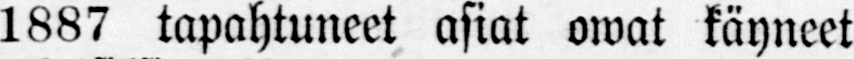1887 tapahtuneet asiat owat käyneet
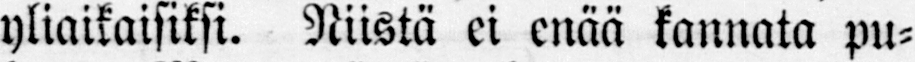yliaikaisiksi. Niistä ei enää kannata pu-
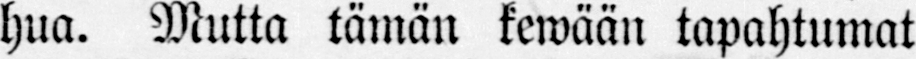hua. Mutta tämän kewään tapahtumat
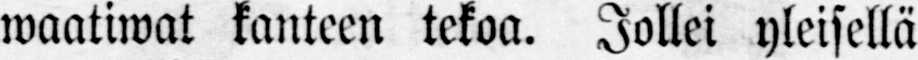waatiwat kanteen tekoa. Jollei yleisillä
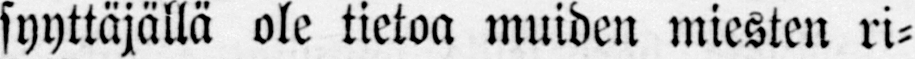syyttäjällä ole tietoa muiden miesten ri-
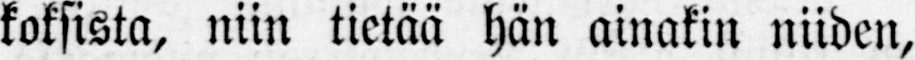koksista, niin tietää hän ainakin niiden,
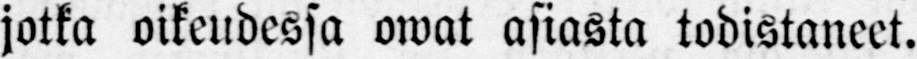jotka oikeudessa owat asiasta todistaneet.
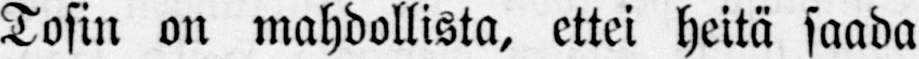Tosin on mahdollista, ettei heitä saada
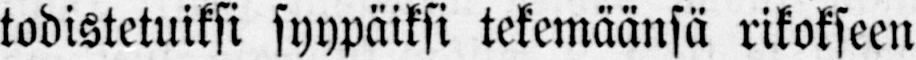todistetuiksi syypäiksi tekemäänsä rikokseen
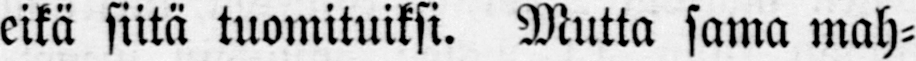eikä siitä tuomituiksi. Mutta sama mah-
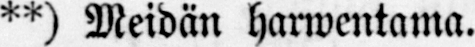**) Meidän harwentama.
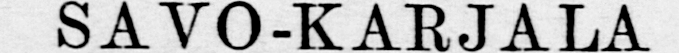SAVO-KARJALA
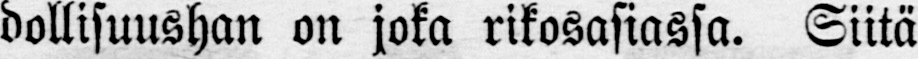dollisuushan on joka rikosasiassa. Siitä
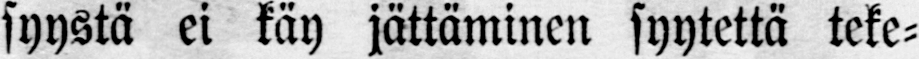syystä ei käy jättäminen syytettä teke-
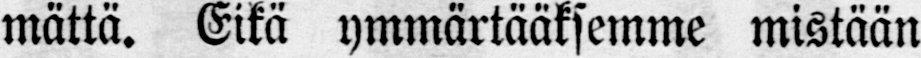mättä. Eikä ymmärtääksemme mistään
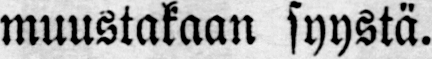muustakaan syystä.
